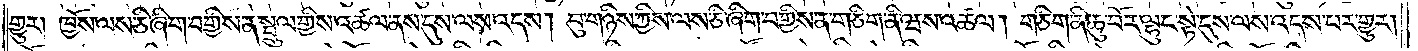གྱུར། ཁྱོས་ལས་ཅི་ཞིག་བགྱིས་ན་སྦྲུལ་གྱིས་འཚལ་ནས་དུས་ལས་འདས། བུ་གཉིས་ཀྱིས་ལས་ཅི་ཞིག་བགྱིས་ན་གཅིག་ནི་ཝས་འཚལ། གཅིག་ནི་ཆུ་བོར་ལྷུང་སྟེ་དུས་ལས་འདས་པར་གྱུར།
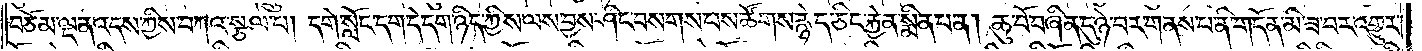བཅོམ་ལྡན་འདས་ཀྱིས་བཀའ་སྩལ་པ། དགེ་སློང་དག་དེ་དག་ཉིད་ཀྱིས་ལས་བྱས་ཤིང་བསགས་པས་ཚོགས་རྙེད་ཅིང་རྐྱེན་སྨིན་པ་ན། ཆུ་བོ་བཞིན་དུ་ཉེ་བར་གནས་པ་ནི་གདོན་མི་ཟ་བར་འགྱུར་
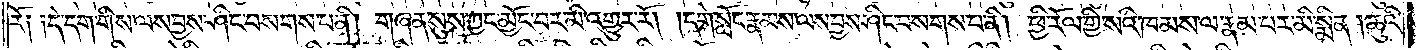རོ༑ ༑དེ་དག་གིས་ལས་བྱས་ཤིང་བསགས་པ་ནི། གཞན་སུས་ཀྱང་མྱོང་བར་མི་འགྱུར་རོ། །དགེ་སློང་རྣམས་ལས་བྱས་ཤིང་བསགས་པ་ནི། ཕྱི་རོལ་གྱི་སའི་ཁམས་ལ་རྣམ་པར་མི་སྨིན། ཆུའི་
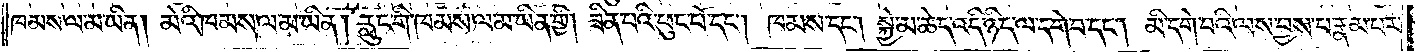ཁམས་ལ་མ་ཡིན། མེའི་ཁམས་ལ་མ་ཡིན། རླུང་གི་ཁམས་ལ་མ་ཡིན་གྱི། ཟིན་པའི་ཕུང་པོ་དང༌། ཁམས་དང༌། སྐྱེ་མཆེད་འདི་ཉིད་ལ་དགེ་བ་དང༌། མི་དགེ་བའི་ལས་བྱས་པ་རྣམ་པར་
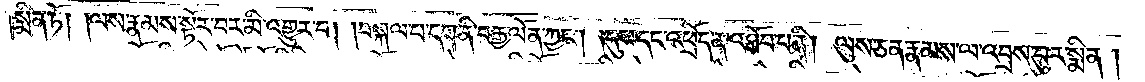སྨིན་ཏོ། །ལས་རྣམས་སྟོར་བར་མི་འགྱུར་པ། །བསྐལ་པ་དག་ནི་བརྒྱ་ལོན་ཀྱང༌། །དུས་དང་འཕྲོད་ན་འཐོབ་པ་ནི། ལུས་ཅན་རྣམས་ལ་འབྲས་བུར་སྨིན།
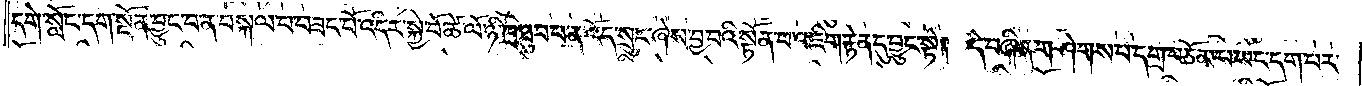དགེ་སློང་དག་སྔོན་བྱུང་བ་ན་བསྐལ་པ་བཟང་པོ་འདིར་སྐྱེ་བོ་ཚེ་ལོ་ཉི་ཁྲི་ཐུབ་པ་ན་འོད་སྲུང་ཞེས་བྱ་བའི་སྟོན་པ་འཇིག་རྟེན་དུ་བྱུང་སྟེ། དེ་བཞིན་གཤེགས་པ་དགྲ་བཅོམ་པ་ཡང་དག་པར་
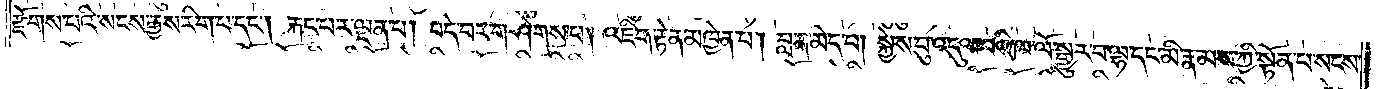རྫོགས་པའི་སངས་རྒྱས་རིག་པ་དང༌། རྐང་པར་ལྡན་པ། བདེ་བར་གཤེགས་པ། འཇིག་རྟེན་མཁྱེན་པ། བླ་ན་མེད་པ། སྐྱེས་བུ་འདུལ་བའི་ཁ་ལོ་སྒྱུར་བ་ལྷ་དང་མི་རྣམས་ཀྱི་སྟོན་པ་སངས་
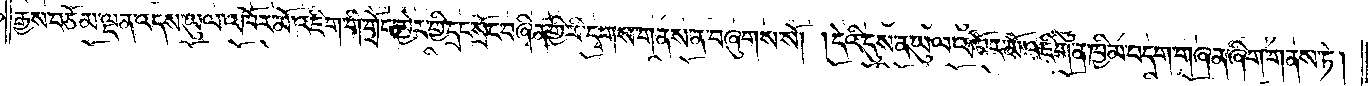རྒྱས་བཅོམ་ལྡན་འདས་ཡུལ་འཁོར་མོ་འཇིག་གི་གྲོང་ཁྱེར་གྱི་དྲང་སྲོང་བཞིན་གྱི་རི་དྭགས་གནས་ན་བཞུགས་སོ། །དེའི་དུས་ན་ཡུལ་འཁོར་མོ་འཇིག་ན་ཁྱིམ་བདག་གཞན་ཞིག་གནས་ཏེ།
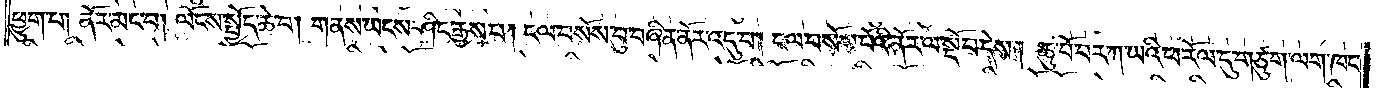ཕྱུག་པ། ནོར་མང་བ། ལོངས་སྤྱོད་ཆེ་བ། གནས་ཡངས་ཤིང་རྒྱས་པ། ངལ་བསོས་བུ་བཞིན་ནོར་འདུ་བ། ངལ་བསོས་པོའི་ནོར་ལ་སྔོ་བ་དེས། ཆུ་བོ་བར་ཀ་ཡའི་ཕ་རོལ་ཏུ་གཙུག་ལག་ཁང་
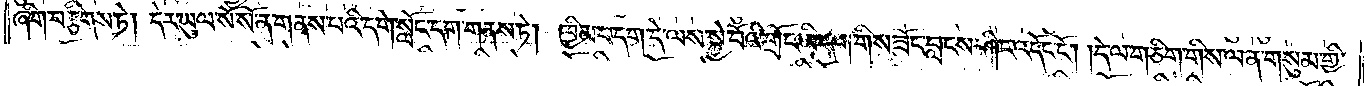ཞིག་བརྩིགས་ཏེ། དེར་ཡུལ་སོ་སོ་ན་གནས་པའི་དགེ་སློང་དག་གནས་ཏེ། ཁྱིམ་བདག་དེ་ལས་སྐྱེ་བོའི་གྲོང་མི་དག་གིས་ཟོང་བླངས་ཤིང་འདོང་ངོ༌། །དེ་ལ་གཅིག་གིས་ལན་གསུམ་གྱི་
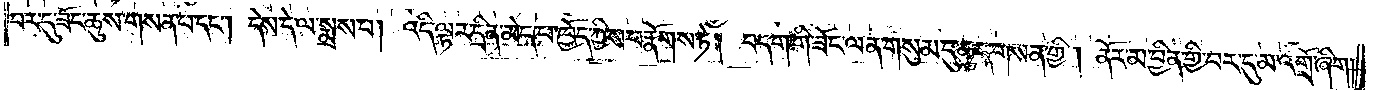བར་དུ་ཟོང་ཆུས་གསན་པ་དང༌། དེས་དེ་ལ་སྨྲས་པ། འདི་ལྟར་དྲིན་མེད་པ་ཁྱོད་ཀྱིས་བརྣོགས་ཏེ། བདག་གི་ཟོང་ལན་གསུམ་དུ་ཆུད་གསན་གྱི། ནོར་མ་བྱིན་གྱི་བར་དུ་མ་འགྲོ་ཞིག།
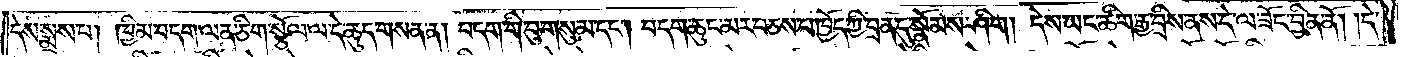དེས་སྨྲས་པ། ཁྱིམ་བདག་ལན་ཅིག་སྩོལ་ལ་དེ་ཆུད་གསན་ན། བདག་གི་བུ་གསུམ་དང༌། བདག་ཆུང་མར་བཅས་པ་ཁྱོད་ཀྱི་བྲན་དུ་སྣོམས་ཤིག། དེས་ཡང་ཚིག་རྒྱ་བྲིས་ནས་དེ་ལ་ཟོང་བྱིན་ནོ། །དེ་
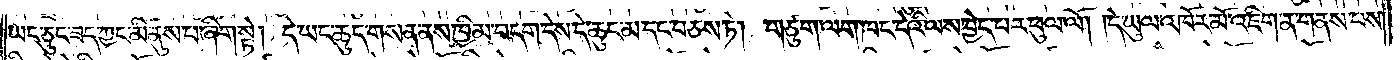ཡང་ཅུང་ཟད་ཀྱང་མི་ནུས་པ་ཞིག་སྟེ། དེ་ཡང་ཆུད་གསན་ནས་ཁྱིམ་བདག་དེས་དེ་ཆུང་མ་དང་བཅས་ཏེ། གཙུག་ལག་ཁང་དེའི་ལས་བྱེད་པར་ཕུལ་ལོ། །དེ་ཡུལ་འཁོར་མོ་འཇིག་ན་གནས་པས་
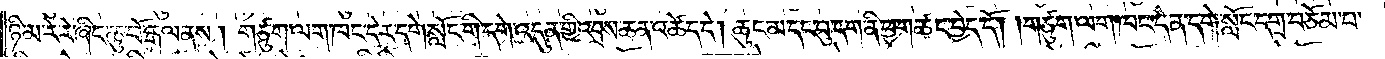ཉི་མ་རེ་རེ་ཞིང་ཆུ་བོ་རྒལ་ནས། གཙུག་ལག་ཁང་དེར་དགེ་སློང་གི་དགེ་འདུན་གྱི་འབྲས་ཆན་འཚེད་དེ། ཆུང་མ་དང་བུ་དག་ནི་ཕྱག་ཚང་བྱེད་དོ། །གཙུག་ལག་ཁང་དེ་ན་དགེ་སློང་དགྲ་བཅོམ་པ་
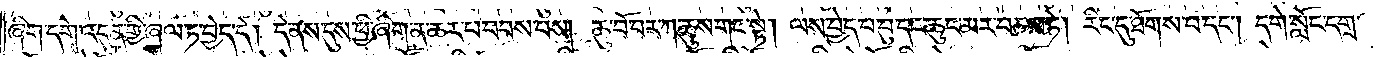ཞིག་དགེ་འདུན་གྱི་ཞལ་ཏ་བྱེད་དེ། དེ་ནས་དུས་ཕྱི་ཞིག་ན་ཆར་པ་བབས་པས། ཆུ་བོ་བར་ཀ་ཆུས་གང་སྟེ། ལས་བྱེད་པ་བུ་དང་ཆུང་མར་བཅས་ཏེ། རིང་དུ་ཐོགས་པ་དང༌། དགེ་སློང་དགྲ་
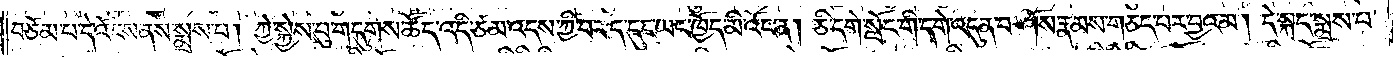བཅོམ་པ་དེ་འོངས་ནས་སྨྲས་པ། ཀྱེ་སྐྱེས་བུ་གདུགས་ཚོད་འདི་ཙམ་འདས་ཀྱི་བར་ད་དུང་ཡང་ཁྱོད་མི་འོང་ན། ཅི་དགེ་སློང་གི་དགེ་འདུན་བཤོས་རྣམས་གཅད་པར་བྱའམ། དེ་སྐད་སྨྲས་པ་
